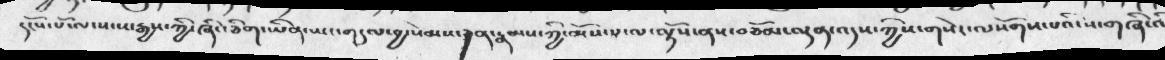དངོས་པོ་ལ་སངས་རྒྱས་ཀྱི་ཞིང་ཅིག་ཡིན་ཡང་གདུལ་བྱ་སེམས་ཅན་རྣམས་ཀྱི་མོས་པ་ལ་ལྟོས་ནས་བཅོམ་ལྡན་འདས་ཀྱིས་གསེར་ལསོགས་པའི་ས་གཞི་འི་
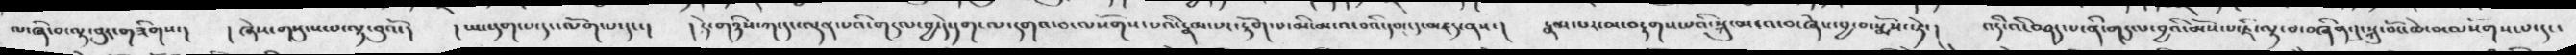ལ་ཞི་བ་ལྟ་བུ་གཟིགས་།   ། ཞེས་གསུངས་པ་ལྟ་བུའོ་།  ། ཡང་དག་པ་དང་ལོག་པ་དང་།  ། དེ་གཉིས་ཀ་དང་ལྡན་པའི་གདུལ་བྱ་དེ་དག་ལ་དགའ་བ་ལསོགས་པའི་རྣམ་པར་རྟོག་པ་མི་མངའ་བའི་དམ་དུ་མཛད་ནས་།  རྣམ་པར་མ་བརྟགས་པའི་སྐུ་མངའ་བ་ཞེས་བྱ་བ་སྨོས་སྟེ་།    འདིའི་བཤད་པ་ནི་གདུལ་བྱའི་མོས་པ་ཇི་ལྟ་བ་བཞིན་དུ་སྐུ་བོང་ཆེ་བ་ལསོགས་པ་དང་
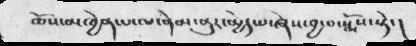ཆོས་མཁྱེན་པ་ལ་ནེམ་ནུར་མྱེད་པ་ཞེས་བྱ་བ་སྨོས་སྟེ་།
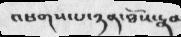འཕགས་པ་ཉན་ཐོས་རྣམ
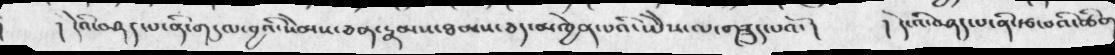།    ། དེའི་བཤད་པ་ནི་གདུལ་བྱའི་སེམས་ཅན་རྣམས་ཐམས་ཅད་མཁྱེན་པའི་ཡེེས་ལ་གཟུད་པའོ་།   ། དེ་འི་བཤད་པ་ནི་རྩ་བའི་ཚིག་
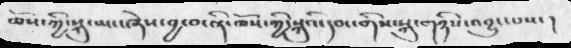ཆོས་ཀྱི་སྐུ་ཡང་ཞེས་བྱ་བ་ནི་ཆོས་ཀྱི་སྐུའི་དབང་གིས་སྐུ་གཉིས་འབྱུང་པས་།
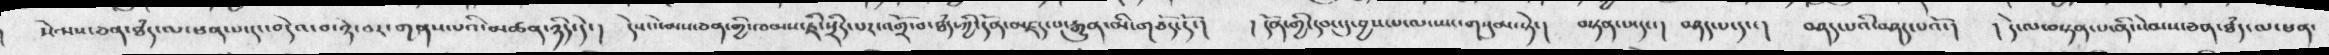སེམས་ཅན་ཐཾད་ལ་ཕན་པ་དང་བདེའ་བ་ཉེ་བར་གནས་པའི་མཚན་ཉིད་དེ་།  དེས་སེམས་ཅན་གྱི་ཁམས་ཇི་སྲིད་པར་འགྲོ་བ་ཐཾད་ཀྱི་དོན་མཛད་པ་རྒྱུན་མི་གཅོད་དོ་།   ། དོན་གྱི་དབང་དུ་བྱས་པ་ལ་ཡང་གསུམ་སྟེ་།  བསྟན་པ་དང་།  བཤད་པ་དང་།   བཤད་པའི་བཤད་པའོ་།  ། དེ་ལ་བསྟན་པ་ནི་སེམས་ཅན་ཐཾད་ལ་ཕན་
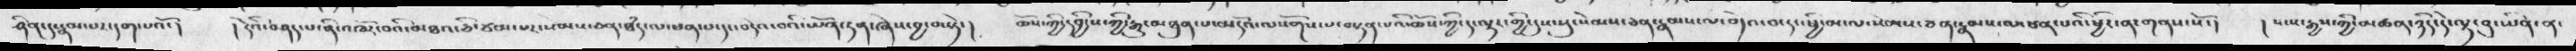ཤིན་དུ་རྣམ་པར་དག་པའོ་།   ། དེའི་བཤད་པ་ནི་འཁོར་བའི་མཐའ་ཅི་ཙམ་པར་སེམས་ཅན་ཐཾད་ལ་ཕན་པ་དང་བདེའ་བའི་ཡོན་ཏན་ཞེས་བྱ་བ་སྟེ་།   ཆོས་ཀྱི་དབྱིངས་ཀྱི་རྒྱུ་མཐུན་པ་མདོའ་ལསོགས་པ་བསྟན་པའི་ཆོས་ཀྱི་ད་ལྟར་གྱི་དུས་སུ་སེམས་ཅན་རྣམས་ལ་བདེའ་བ་དང་ཕྱི་མ་ལ་སེམས་ཅན་རྣམས་ལ་ཕན་པའི་ཕྱིར་ན་གནས་སོ་།   །  སངས་རྒྱས་ཀྱི་མཚན་ཉིད་དེ་ལྟ་བུ་ཡིན་ན་
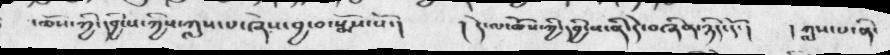་ཆོས་ཀྱི་དབྱིངས་ཀྱི་ཀླས་པ་ཞེས་བྱ་བ་སྨོས་སོ་།   ། དེ་ལ་ཆོས་དབྱིངས་ནི་དེ་བཞིན་ཉིད་དོ་།   ། ཀླས་པ་ནི་
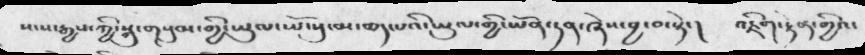སངས་རྒྱས་ཀྱི་སྐུ་གསུམ་གྱི་ཡུལ་ཡོངསུ་མ་ཆད་པའི་ཡུལ་གྱི་ཡོན་ཏན་ཞེས་བྱ་བ་སྟེ་།  འཇིག་རྟེན་གྱིའ་
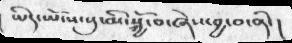ཡིད་ཡོངས་སུ་མི་སྐྱོ་བ་ཞེས་བྱ་བ་ནི་།
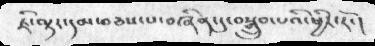ཇི་ལྟར་དམ་བཅས་པ་བཞིན་དུ་བསྒྲུབ་པའི་ཕྱིར་རོ་།
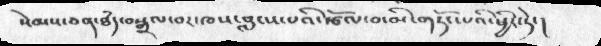སེམས་ཅན་ཐཾད་བསྒྲལ་བར་ཁས་བླངས་པའི་རྩོལ་མི་གཏོང་པའི་ཕྱིར་ཏེ་།
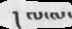། ལ་ལ་
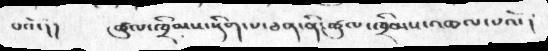པའོ་།།     ཚུལ་ཁྲིམས་སྡིག་པ་ཅན་ནི་ཚུལ་ཁྲིམས་འཆལ་པའོ་།
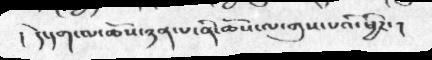།  དེ་དག་ལ་ཆོས་ཉན་པ་ནི་ཆོས་ལ་གུས་པའི་ཕྱིར་།
